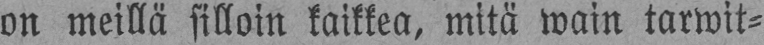on meillä silloin kaikkea, mitä wain tarwit-
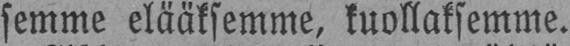semme elääksemme, kuollaksemme.
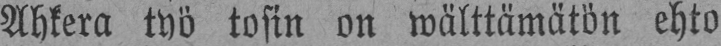Ahkera työ tosin on wälttämätön ehto
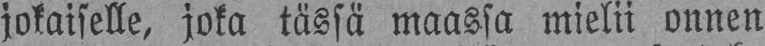jokaiselle, joka tässä maassa mielii onnen
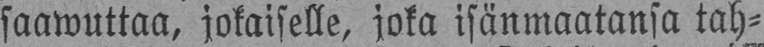saawuttaa, jokaiselle, joka isänmaatansa tah-
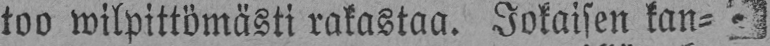too wilpittömästi rakastaa. Jokaisen kan-
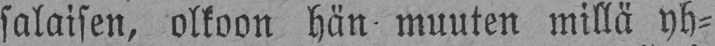salaisen, olkoon hän muuten millä yh-
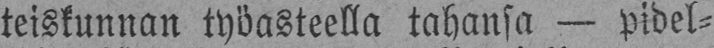teiskunnan työasteella tahansa — pidel-
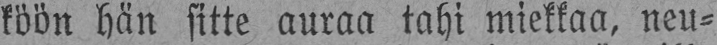köön hän sitte auraa tahi miekkaa, neu-
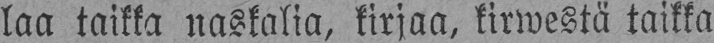laa taikka naskalia, kirjaa, kirwestä taikka
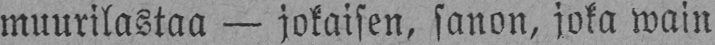muurilastaa — jokaisen, sanon, joka wain
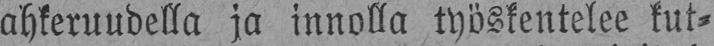ahkeruudella ja innolla työskentelee kut-
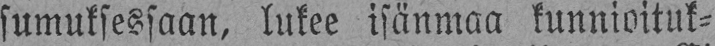sumuksessaan, lukee isänmaa kunnioituk-
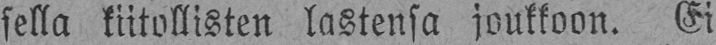sella kiitollisten lastensa joukkoon. Ei
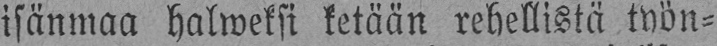isänmaa halweksi ketään rehellistä työn-
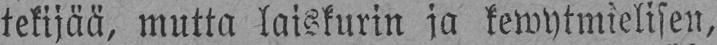tekijää, mutta laiskurin ja kewytmielisen,
